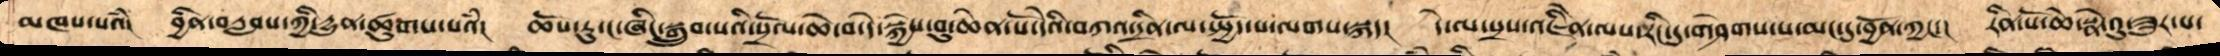མཁས་པའཾ། བྱིན་བརླབས་ཀྱི་དྱུན་ཚུགས་པའཾ། ཆོས་ཏུ་ང་ཞིང་སྒྲུབ་པའི་སྲོལ་ཆེ་བ་དེ་སྐྱེས་བུ་ཆེན་པོ་དེའི་བཀའ་དྲིན་ལ་སྤྱོད་པ་ལགས་སྐད།  དེ་ལ་སྲས་འཇིེན་ལས་རིང་དུ་གཤེགས་པ་མང་དུ་བྱོན་ཀྱང་།  རིན་པོ་ཆེ་སྣེ་འུ་ཟུར་པ་
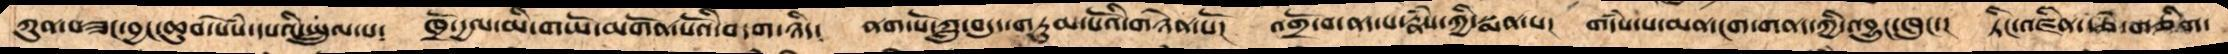ཀུན་བཟང་བྱང་ཆུབ་སེཾས་དཔའི་སྤྲུལ་པ༴  ཁྲོ་དྱལ་མི་གཡོ་མགོན་པོའི་བདག་ཉིད༴  ནག་པོ་ཀླུ་བདུད་གཏུམ་པོའི་གཉེན་པོ།   འགྲོ་བ་ནད་པ་རྣཾས་ཀྱི་སྨན་པ།  གདཾས་པ་མན་ངག་གནད་ཀྱི་འབྱུང་ཁུང་།   ཏིང་འཛིན་རྩེ་གཅིག་
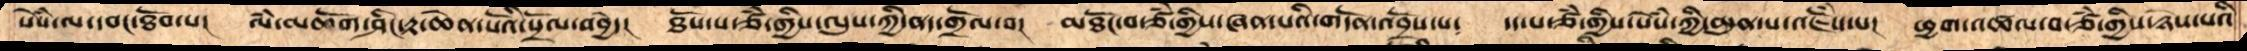སེསཾ་ལ་དབང་ཐོབ་པ།   ལཾ་མཆོག་ཤིང་རྟ་ཆེན་པོའི་སྲོལ་འབྱེད།   ཐོས་པ་ཙཾ་གྱིས་ལུས་ཀྱི་ནད་གྲོལ་བ།   མཐོང་བ་ཙཾ་གྱིས་ཞན་པའི་གདོན་འབྲོས་པ༴   དད་པ་ཙཾ་གྱིས་སེསཾ་ཀྱི་མུན་པ་འཇོཾས་པ།   ཕྱག་འཚལ་བ་ཙཾ་གྱིས་ཉེས་པའི
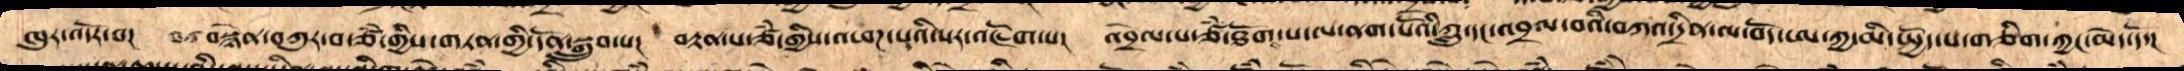ཁུར་འདོར་བ།   བསྙེན་བཀུར་བ་ཙཾ་གྱིས་གཏན་གྱི་དོན་སྒྲུབ་་པ།   བརྟན་པ་ཙཾ་གྱིས་འཕཌ་པའི་སར་འཇོག་པ།   འབྲེལ་པ་ཙཾ་ཐོགས་པ་ལ་ནག་པོའི་ཀླུ་དང་འབྲལ་བའི་བཀའ་དྲིན་ལ་བོད་ཨ་ཀྱ་མི་སྤྱོད་པ་གཅིག་ཀྱང་མེད་དོ་།
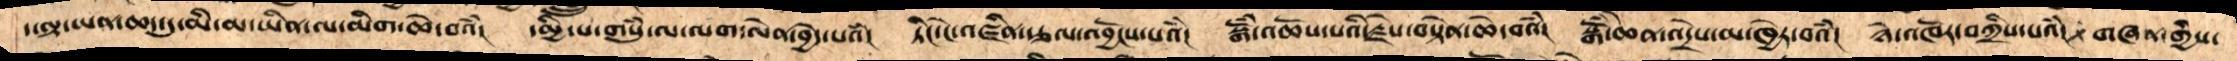ད་ལྟ་ཡན་ཆད་དུ་མི་མ་ཡིན་ལ་མིག་ཆེ་བའཾ།   དམྱི་པ་གསུཾ་ལ་ལག་ལེན་བྱེད་པའཾ།   ཏིང་ངེ་འཛིན་རྩལ་འབྱོངས་པའཾ།   སྒོཾ་འཆོས་པའི་རྗེས་བསྟེན་ཆེ་བའཾ།  སྒོཾ་ཆེན་འདྲེས་མ་ཁྱེར་བའཾ།  ཉེ་འཁོར་བཀྲིས་པའཾ།  གཞན་གྱིས་
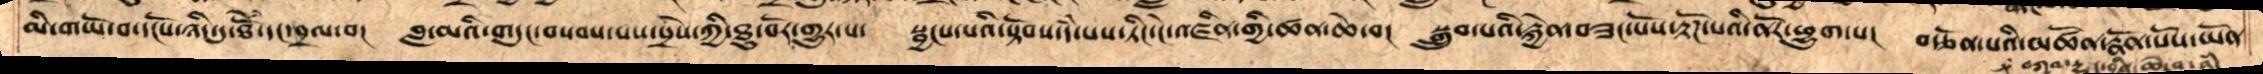མི་གཡོ་བ་དངོས་ཉིད་དུ་ཐེོཾ་དང་བྲལ་བ།  བླ་མའི་གདུང་བསབས་པས་སྲས་ཀྱི་ཐུ་བོར་གྱུར་པ།  སྦྱངས་པའི་སྟོབས་དཾ་པས་ཏིང་ངེ་འཛིན་གྱི་ཚན་ཆེ་བ།  སྒྲུབ་པའི་རྐྱེན་བཟང་པོས་རྟོཌ་པའི་ནོར་ཕྱུག་པ། བརྩོན་པའི་མཚོན་རྣོན་པོས་ཡོན་
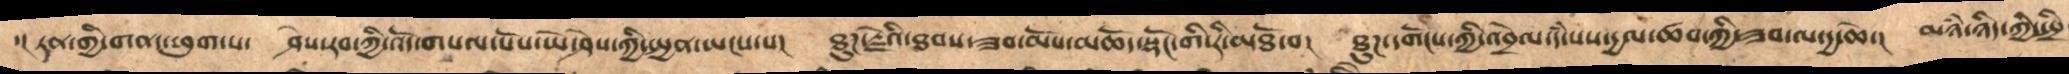་།  ཏན་གྱི་གནད་ཕུག་པ།  ཤེས་རབ་ཀྱི་འོད་གསལ་པོས་ཡེ་ཤེས་ཀྱི་སྤྱན་ཡངས་པ།  ཐུཌ་རྗེའི་ཐབས་ཟབ་མོས་མཆོད་སྡོང་གི་རི་མཐོ་བ།  ཐུཌ་དགོངས་ཀྱི་འབྲེལ་དཾ་པས་རྒྱལ་ཚབ་ཀྱི་ཟབ་ལ་དྱ་ཆེ་། མཉཾ་ཉིད་ཀྱི་སྤྲི
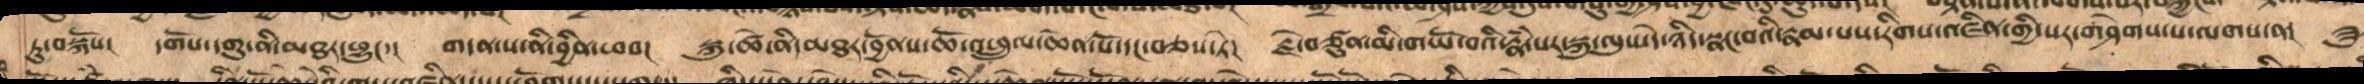ཏུ་བསྐོས།  དགོས་དགུ་ནི་མཐར་ཕྱུང་། གདན་ས་ནི་བྱིན་ཕབ།  སྐུ་ཚེ་ནི་མཐར་བྱོནས་ཆོ་འཕྲུལ་ཆེན་པོ་དང་བཅས་ཏེ།  རྗེ་བཙུན་མི་གཡོ་བའི་རྣཾ་པར་སྐུ་ལུས་དེ་ཉིད་སྣང་བའི་རྣམ་པས་རིགས་འཛིན་གྱི་སར་གཤེགས་པ་ལགས་ན། ཟུ
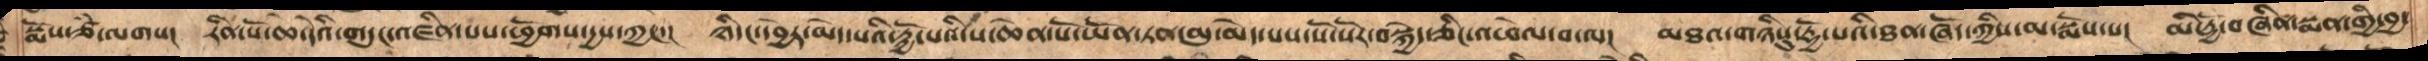སྨོས་ཙམ་ལགས། རིན་པོ་ཆེ་དེའི་གདུང་འཛིན་པས་ཕྱོགས་དྱས་ཀྱང་།  ཉིདང་དབྱེར་མེད་པའི་རྟྱོ་པའི་ས་ཆེན་པོ་ཡོན་ཏན་མུ་མེད་པས་སོ་སོར་བསྐྱེད་ཅིང་འཕེལ་བ་ལ།   མཐའ་གཉིསུ་རྟྱོ་པའི་ཐན་ཞོད་ཀྱིས་མ་སྨོས་པ།  མི་རྟྱོ་བཞིན་སྨན་གྱི་བྱ་
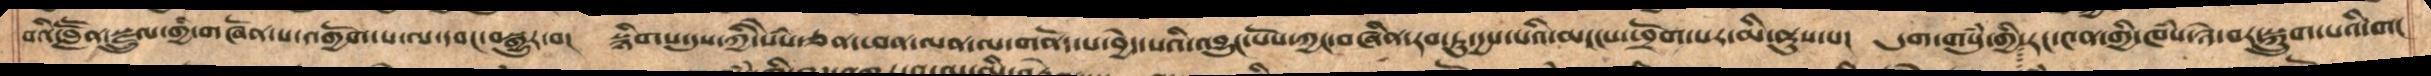བའི་བླཽན་སྫྲུལ་གྱི་གཞོན་པ་འགྱོག་པ་ལ་དབང་བསྒྱུར་བ།  སྙིགས་དུས་ཀྱི་སེཾས་ཅན་ཕན་ལན་ལ་གནོད་པ་བྱེད་པའི་འབྱུང་པོས་ཀྱང་བཞིན་རབ་ཏུ་དྱས་པའི་མདངས་དཕྲོག་པར་མི་ནུས་པ།   དུག་གསུཾ་གྱི་རང་༤ན་གྱི་ཁཾས་ཉེ་བར་སྐྲུགས་པའི་གང
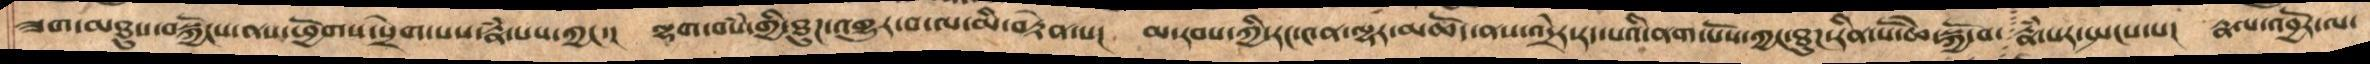ཟག་མཐུས་བསྐྱོངས་ནས་ཕྱོགས་སྲེག་པའི་རྣཾ་པས་ཀྱང་།  ལྷག་བསཾ་གྱི་ཐུཌ་འགྱུར་བ་ལ་མི་བརྟེན་པ།  མ་རབས་ཀྱི་རང་༤ན་ལྷར་མཆོད་ནས་འདྲེར་རད་པའི་ནག་པོས་ཀྱང་ཐུཌ་རིན་པོ་ཆེ་སྐྱོ་བ་རྣཾ་པར་སྤངས་པ།  རྣལ་འབྱོར་ལ་
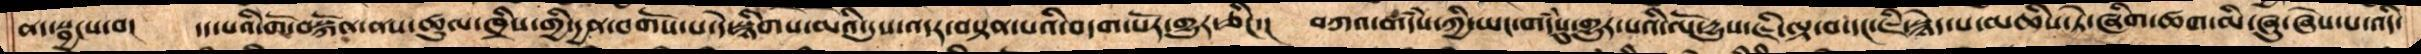ནད་སྦྱངས་བ།    དད་པའི་གོ་བསྐོན་ནས་ཚུལ་ཁྲིས་གྱི་དྱན་བགོས་པ་དེ་སྙིགས་མའི་དུས་འདར་བསྟན་པའི་བདག་པོར་གྱུར་ཅིང་།    བཀའ་གདཾས་ཀྱི་ཡང་གདཾསུ་གྱུར་པའི་ལོ་དྱུས་ཇི་ལྟ་བ་དང་ཇི་སྙེད་པ་མཆིས་ཏེ་ཞིག་ཚག་མི་ཞུ་ཞེས་པ་འདི་
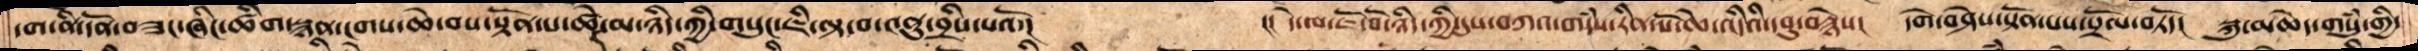དག་ནི་དོན་བཟང་ཞིང་ཚིག་སྙན་ངགས་ཆེ་བས་སྟོན་པ་ཚེ་མ་ཉིད་ཀྱི་གསུང་ཇི་ལྟ་བ་༤ནུ་བྲིས་པའོ་།      །།། དེ་ལ་ཇོ་བོ་ཉིད་ཀྱི་དུས་བཀའ་གདཾས་རིན་པོ་ཆེ་འདིའི་དབུ་བརྙེས།   དགེ་བཤེས་སྟོན་པས་སྲོལ་བཏོད།    སྐུ་མཆེད་གསུཾ་གྱི་
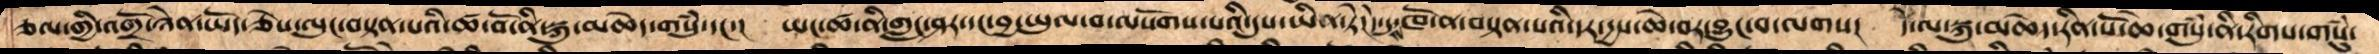ཅལ་གྱིས་འགྲོ་ཉེན་ཡོད་ཅེས་ལུང་བསྟན་པའི་ཚ་བོ་ནི་སྐུ་མཆེད་གསུྃ་དང་།  ཡང་ཚ་ནི་གླང་ཤར་དང་བྱ་ཡུལ་བ་ལསོགས་པའི་དུས་ཡིན་ཏེ་དེ་དུས་ཁོ་ན་བསྟན་པའི་དར་དྱས་ཆེ་བར་བྱུང་བ་ལགས། དེ་ལ་སྐུ་མཆེད་རིན་པོ་ཆེ་གསུྃ་ནི་རིགས་གསུྃ་
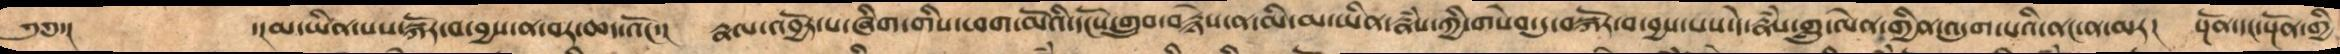༄༅་།         ་།མ་ཡིན་པས་སྐོར་བ་བྱས་ན་བར་ཆད་འོང་།  རྣལ་འབྱོར་པ་ཞིག་གིས་ཕག་མོའི་དངོས་གྲུབ་བརྙེས་ན་མི་མ་ཡིན་རྣྃས་ཀྱི་གསེབ་དུ་བསྐོར་བ་བྱས་པས་དེ་རྣྃས་གླུ་ལེན་གྱིན་འདུག་པའི་ནང་ན་མར།  སྔོན་དང་སྔོན་གྱི
